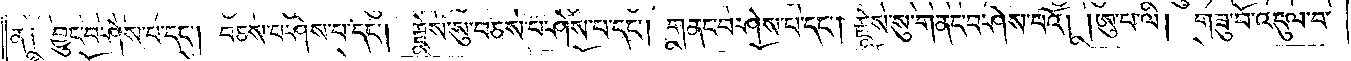ན༑ བྱུང་བ་ཤེས་པ་དང༌། བཅས་པ་ཤེས་པ་དང༌། རྗེས་སུ་བཅས་པ་ཤེས་པ་དང༌། གནང་བ་ཤེས་པ་དང༌། རྗེས་སུ་གནང་བ་ཤེས་པའོ། །ཨུ་པ་ལི། གཟུ་བོ་འདུལ་བ་
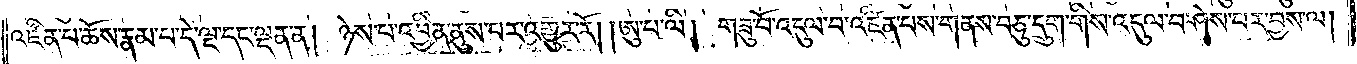འཛིན་པ་ཆོས་རྣམ་པ་དེ་ལྔ་དང་ལྡན་ན། ཉེས་པ་འབྱིན་ནུས་པར་འགྱུར་རོ། །ཨུ་པ་ལི། གཟུ་བོ་འདུལ་བ་འཛིན་པས་གནས་བཅུ་དྲུག་གིས་འདུལ་བ་ཤེས་པར་བྱས་ལ།
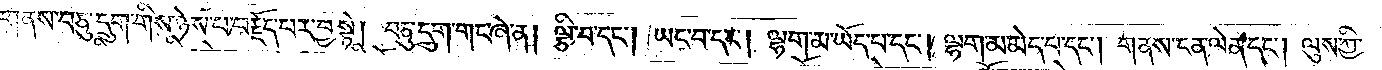གནས་བཅུ་དྲུག་གིས་ཉེས་པ་བརྗོད་པར་བྱ་སྟེ། བཅུ་དྲུག་གང་ཞེ་ན། ལྕི་བ་དང༌། ཡང་བ་དང༌། ལྷག་མ་ཡོད་པ་དང༌། ལྷག་མ་མེད་པ་དང༌། གནས་ངན་ལེན་དང༌། ལུས་ཀྱི་
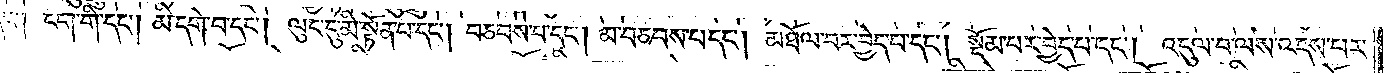དང༌། ངག་གི་དང༌། མི་དགེ་བ་དང༌། ལུང་དུ་མི་སྟོན་པ་དང༌། བཅབས་པ་དང༌། མ་བཅབས་པ་དང༌། མཐོལ་བར་བྱེད་པ་དང༌། སྡོམ་པར་བྱེད་པ་དང༌། འདུལ་བ་ལས་འདས་པར་
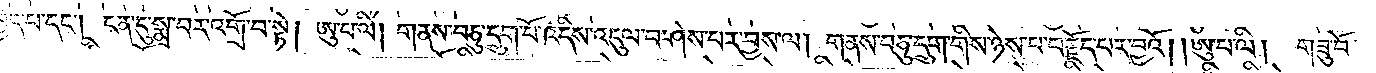བྱེད་པ་དང༌། ངན་དུ་སྨྲ་བར་འགྲོ་བ་སྟེ། ཨུ་པ་ལི། གནས་བཅུ་དྲུག་པོ་འདིས་འདུལ་བ་ཤེས་པར་བྱས་ལ། གནས་བཅུ་དྲུག་གིས་ཉེས་པ་བརྗོད་པར་བྱའོ། །ཨུ་པ་ལི། གཟུ་བོ་
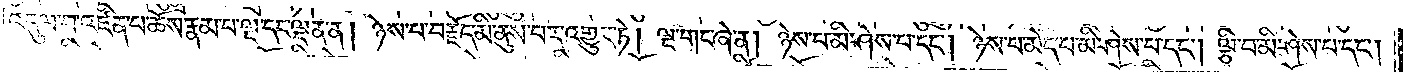འདུལ་བ་འཛིན་པ་ཆོས་རྣམ་པ་ལྔ་དང་ལྡན་ན། ཉེས་པ་བརྗོད་མི་ནུས་པར་འགྱུར་ཏེ། ལྔ་གང་ཞེ་ན། ཉེས་པ་མི་ཤེས་པ་དང༌། ཉེས་པ་མེད་པ་མི་ཤེས་པ་དང༌། ལྕི་བ་མི་ཤེས་པ་དང༌།
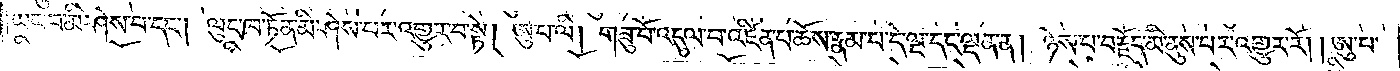ཡང་བ་མི་ཤེས་པ་དང༌། ལུང་ཁ་ཏོན་མི་ཤེས་པར་འགྱུར་བ་སྟེ། ཨུ་པ་ལི། གཟུ་བོ་འདུལ་བ་འཛིན་པ་ཆོས་རྣམ་པ་དེ་ལྔ་དང་ལྡན་ན། ཉེས་པ་བརྗོད་མི་ནུས་པར་འགྱུར་རོ། །ཨུ་པ་
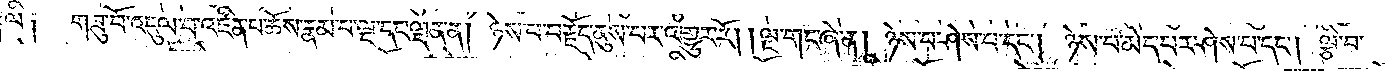ལི༑ གཟུ་བོ་འདུལ་བ་འཛིན་པ་ཆོས་རྣམ་པ་ལྔ་དང་ལྡན་ན། ཉེས་པ་བརྗོད་ནུས་པར་འགྱུར་རོ། །ལྔ་གང་ཞེ་ན། ཉེས་པ་ཤེས་པ་དང༌། ཉེས་པ་མེད་པར་ཤེས་པ་དང༌། ལྕི་བ་
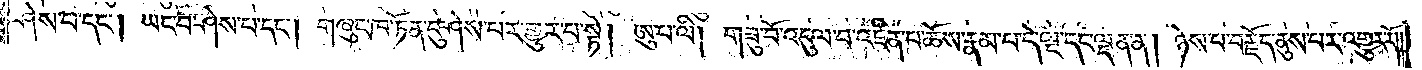ཤེས་པ་དང༌། ཡང་བ་ཤེས་པ་དང༌། གཞུང་ཁ་ཏོན་དུ་ཤེས་པར་གྱུར་པ་སྟེ། ཨུ་པ་ལི། གཟུ་བོ་འདུལ་བ་འཛིན་པ་ཆོས་རྣམ་པ་དེ་ལྔ་དང་ལྡན་ན། ཉེས་པ་བརྗོད་ནུས་པར་འགྱུར་རོ༎
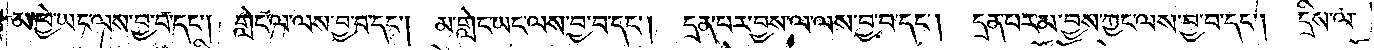མ་ཕྱེ་ཡང་ལས་བྱ་བ་དང༌། གླེང་ལ་ལས་བྱ་བ་དང༌། མ་གླེང་ཡང་ལས་བྱ་བ་དང༌། དྲན་པར་བྱས་ལ་ལས་བྱ་བ་དང༌། དྲན་པར་མ་བྱས་ཀྱང་ལས་བྱ་བ་དང༌། དྲིས་ལ་
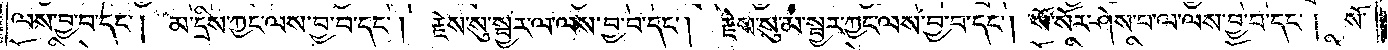ལས་བྱ་བ་དང༌། མ་དྲིས་ཀྱང་ལས་བྱ་བ་དང༌། རྗེས་སུ་སྦྱར་ལ་ལས་བྱ་བ་དང༌། རྗེས་སུ་མ་སྦྱར་ཀྱང་ལས་བྱ་བ་དང༌། སོ་སོར་ཤེས་པ་ལ་ལས་བྱ་བ་དང༌། སོ་
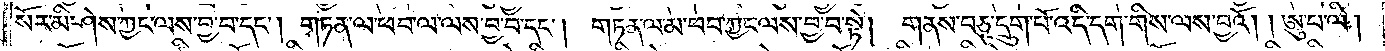སོར་མི་ཤེས་ཀྱང་ལས་བྱ་བ་དང༌། གཏན་ལ་ཕབ་ལ་ལས་བྱ་བ་དང༌། གཏན་ལ་མ་ཕབ་ཀྱང་ལས་བྱ་བ་སྟེ། གནས་བཅུ་དྲུག་པོ་འདི་དག་གིས་ལས་བྱའོ། །ཨུ་པ་ལི།
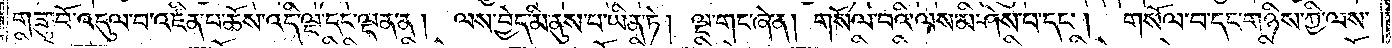གཟུ་བོ་འདུལ་བ་འཛིན་པ་ཆོས་འདི་ལྔ་དང་ལྡན་ན། ལས་བྱེད་མི་ནུས་པ་ཡིན་ཏེ། ལྔ་གང་ཞེ་ན། གསོལ་བའི་ལས་མི་ཤེས་པ་དང༌། གསོལ་བ་དང་གཉིས་ཀྱི་ལས་
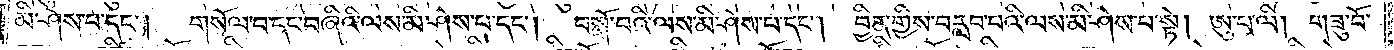མི་ཤེས་པ་དང༌། གསོལ་བ་དང་བཞིའི་ལས་མི་ཤེས་པ་དང༌། བསྒོ་བའི་ལས་མི་ཤེས་པ་དང༌། བྱིན་གྱིས་བརླབ་པའི་ལས་མི་ཤེས་པ་སྟེ། ཨུ་པ་ལི། གཟུ་བོ་
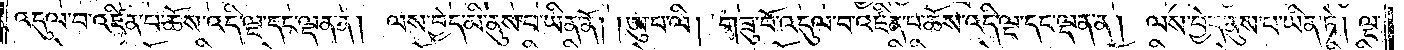འདུལ་བ་འཛིན་པ་ཆོས་འདི་ལྔ་དང་ལྡན་ན། ལས་བྱེད་མི་ནུས་པ་ཡིན་ནོ། །ཨུ་པ་ལི། གཟུ་བོ་འདུལ་བ་འཛིན་པ་ཆོས་འདི་ལྔ་དང་ལྡན་ན། ལས་བྱེད་ནུས་པ་ཡིན་ཏེ། ལྔ་
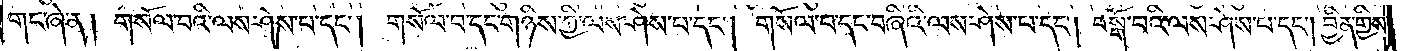གང་ཞེ་ན། གསོལ་བའི་ལས་ཤེས་པ་དང༌། གསོལ་བ་དང་གཉིས་ཀྱི་ལས་ཤེས་པ་དང༌། གསོལ་བ་དང་བཞིའི་ལས་ཤེས་པ་དང༌། བསྒོ་བའི་ལས་ཤེས་པ་དང༌། བྱིན་གྱིས་
